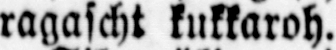ragascht kukkaroh.
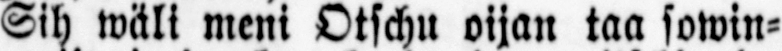Sih wäli meni Otschu oijan taa sowin-
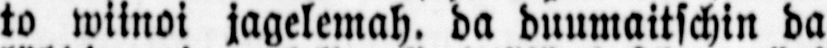to wiinoi jagelemah. da duumaitschin da
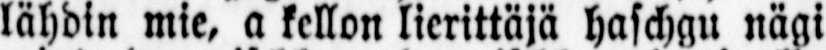lähdin mie, a kellon lierittäjä haschgu nägi
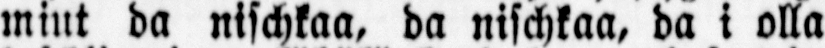miut da nischkaa, da nischkaa, da i olla
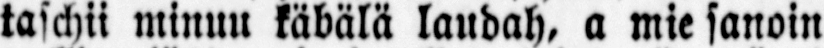taschii minuu käbälä laudah, a mie sanoin
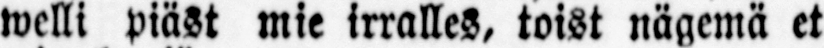welli piäst mie irralles, toist nägemä et
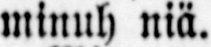minuh niä.
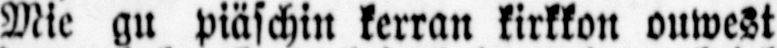Mie gu piäschin kerran kirkkon ouwest
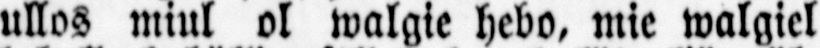ullos miul ol walgie hebo, mie walgiel
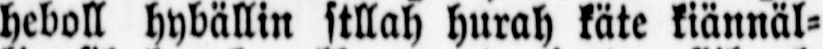heboll hybällin stllah hurah käte kiännäl-
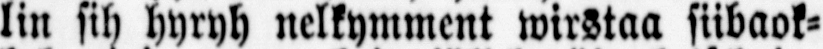lin sih hyryh nelkymment wirstaa siibaok-
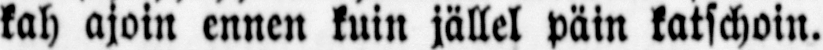kah ajoin ennen kuin jällel päin katschoin.
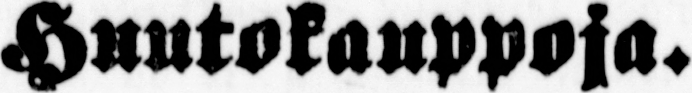Huutokauppoja.
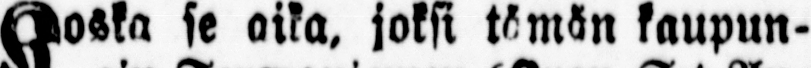Koska se aika, joksi tämän kaupun-
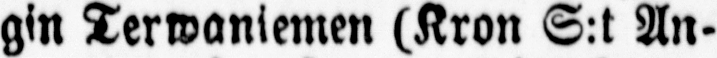gin Terwaniemen (Kron S:t An-
